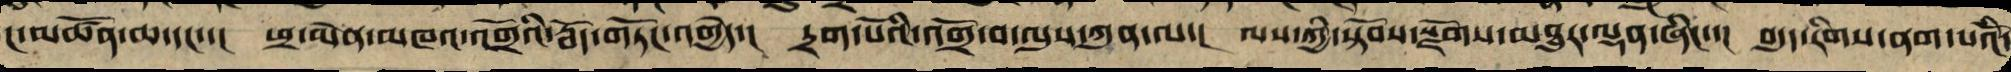ང་མཚོན་ཆ་དང་་། ཕྲ་མེན་མཁའ་འགྲོའི་རྦོད་གཏོང་འགྱེད་། དྲག་པོའི་འགྲོ་བ་ལུས་ཀུན་ལ་། ལས་ཀྱི་སྟོབས་སྫོགས་མཐུར་ལྡན་ཞིང་་། བདུད་རིགས་ནག་པོའི་
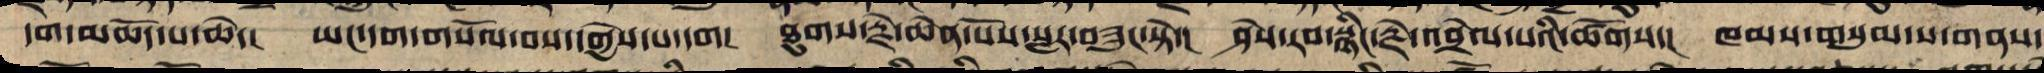དག་མཆོད་པ་ཆེ་། ཡང་དག་གསོལ་བས་དགྱེས་པ་དག། ཐུགས་རྗེ་ཆེན་པོས་སླར་བཟུང་སྟེ་། ཤེས་རབ་སྙིང་རྗེ་འབྲེལ་པའི་ཚོགས་། ཁམས་གསུམ་ས་གནས་
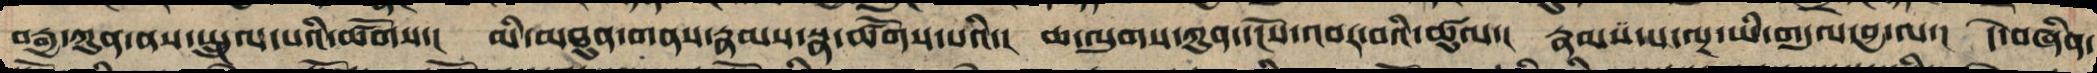བརྒྱ་ཀུན་ནས་སྤྲུལ་པའི་ཚོགས་། མི་མཐུན་གནས་རྣམས་སྣ་ཚོགས་པའི་། ཆ་ལུགས་ཀུན་དངོས་འགྲོ་བའི་ཚུལ་། རྣམ་པ་ལྔ་ཡི་གདུལ་བྱ་ལ་། དེ་བཞིན་
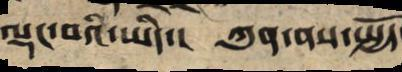ལྡང་བའི་ཡིད་། ཀུན་ནས་སྤྱོད
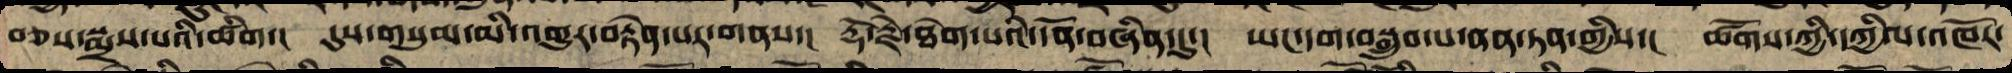བཅས་སྨྲས་པའི་ཚིག་། དུས་གསུམ་མི་འགྱུར་བརྟེན་པར་གནས་། རྡོ་རྗེ་ཐེག་པའི་དོན་བཞིན་དུ་། ཡང་དག་བསྒྲུབ་ལ་ནན་ཏན་གྱིས་། ཚོགས་ཀྱི་དཀྱིལ་འཁོར་
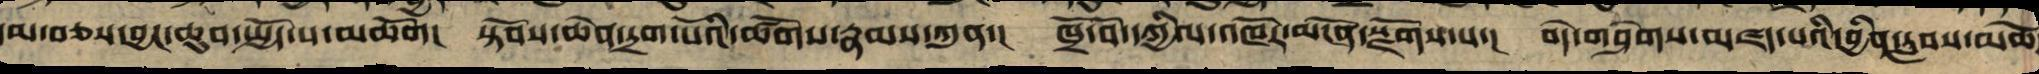དམ་བཅས་བྱང་ཆུབ་སྤྱོད་པ་མཆོག། སྟོབས་ཆེན་དྲག་པོའི་ཚོགས་རྣམས་ཀུན་། ཁྲོ་བོའི་དཀྱིལ་འཁོར་མངོན་སྫོགས་པ་། བདེ་གཤེགས་མཛད་པའི་བྱིན་རླབས་མཆོ
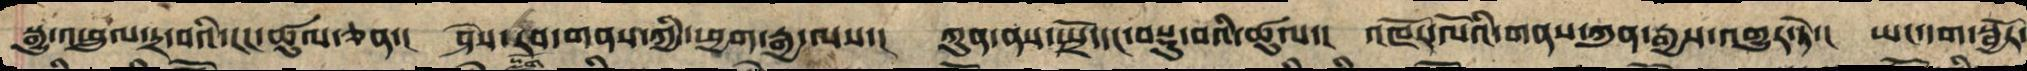སྒྱུ་འཕྲུལ་དྲ་བའི་ངང་ཚུལ་ཅན་། ཤེས་རབ་གནས་ཀྱི་ཕྱག་རྒྱ་ལས་། ཀུན་ནས་སྤྲོ་དང་བསྡུ་བའི་ཚུལ་། འཁོར་ལོའི་གནས་ཀུན་རྒྱས་འགྱུར་ཏེ་། ཡང་དག་སྦྱོར་
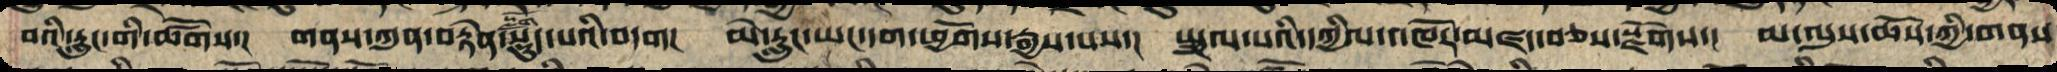བའི་རླུང་གི་ཚོགས་། གནས་ཀུན་བརྟེན་་སྡུད་པའི་བདག། མེ་རླུང་ཡང་དག་ཕྱོགས་རྒྱས་པས་། སྤྲུལ་པའི་དཀྱིལ་འཁོར་མཛད་བཅས་སྫོགས་། མ་ལུས་ཆོས་ཀྱི་གནས
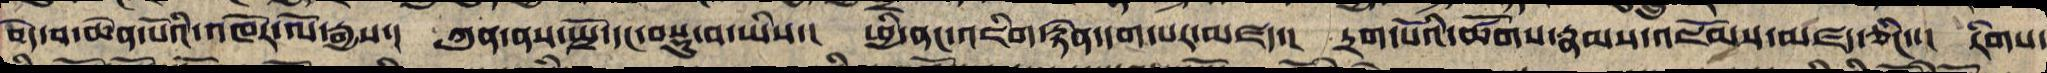བདེ་བ་ཆེན་པོའི་འཁོར་ལོ་རྒྱས་། ཀུན་ནས་སྤྲོ་དང་བསྡུ་བ་ཡིས་། ཕྱི་ནང་འཇིག་རྟེན་དག་པར་མཛད་། དྲག་པོའི་ཚོགས་རྣམས་འཇོམས་མཛད་ཅིང་་། རིགས་
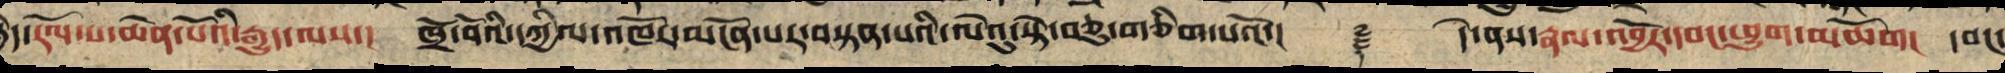ཉིད་རོལ་པ་ཆེན་པོའི་རྒྱུད་ལས་། ཁྲོ་བོའི་དཀྱིལ་འཁོར་མངོན་པར་བསྟན་པའི་ལེའུ་སྟེ་བཅུ་གཅིག་པའོ་།།     ༈      དེ་ནས་རྣལ་འབྱོར་དབང་ཕྱུག་མཆོག། དབང་
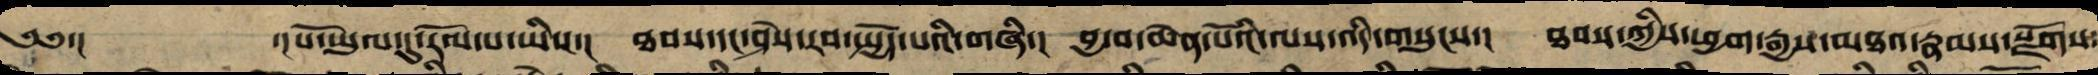༄༅་། ་། པོ་ཡུལ་དུས་རོལ་པ་ཡི་། ཐབས་དང་ཤེས་རབ་སྤྱོད་པའི་གཞི་། བྱ་བ་ཆེན་པོའི་ལས་འདི་གསུངས་། ཐབས་ཀྱི་ཕྱག་རྒྱས་མཐའ་རྣམས་སྫོགས་
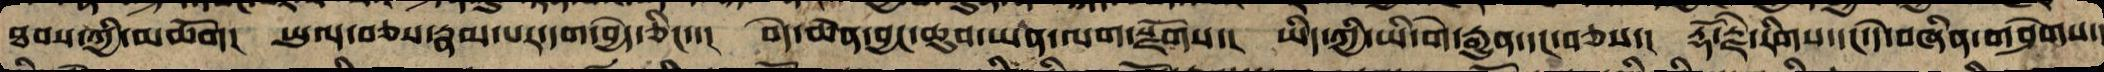ཐབས་ཀྱི་མཆོག། ཡུལ་བཅས་རྣམ་པར་དག་བྱེད་ཅིང་་། བདེ་གཤེགས་བྱང་ཆུབ་ཡན་ལག་སྫོགས་། ཡིད་ཀྱི་ཡི་གེ་རྒྱུན་དང་བཅས་། རྡོ་རྗེའི་རིགས་དང་དེ་བཞིན་གཤེགས་
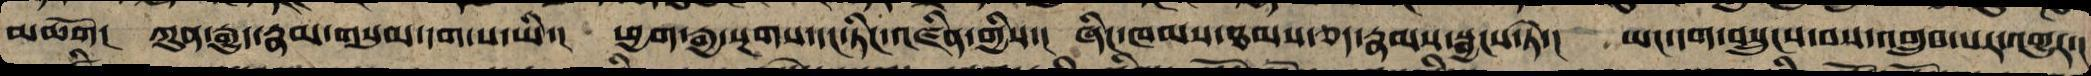མཆོག། ཀུན་རྒྱུད་རྣམ་གསུམ་དག་པ་ཡི་། ཕྱག་རྒྱ་སྔགས་དང་ཏིང་འཛིན་གྱིས་། ཞིང་ཁམས་ཐམས་ཅད་རྣམ་སྦྱངས་ཏེ་། ཡང་དག་བསྲུངས་པས་འགྲུབ་པར་འགྱུར་།
